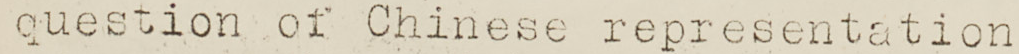question of Chinese representation
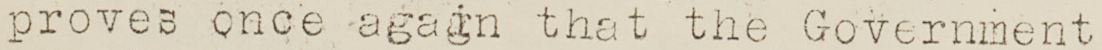proves once again that the Government
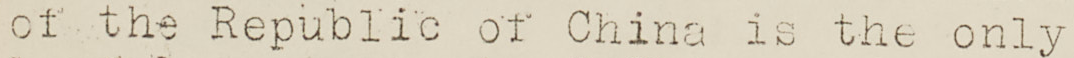of the Republic of China is the only
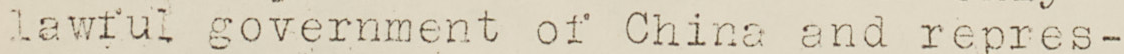lawful government of China and repres-
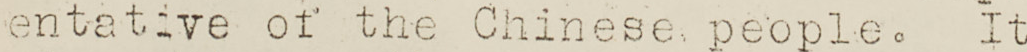entative of the Chinese people. It
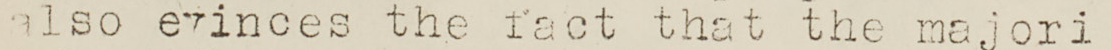also evinces the fact that the majori
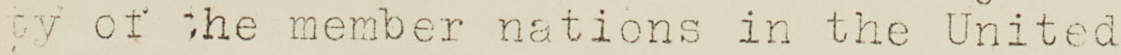ty of the member nations in the United
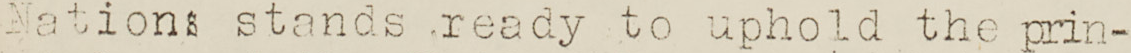Nations stands ready to uphold the prin-
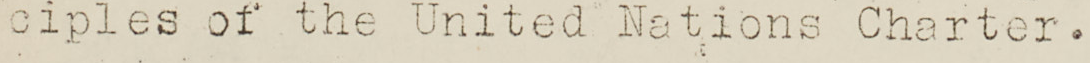ciples of the United Nations Charter.
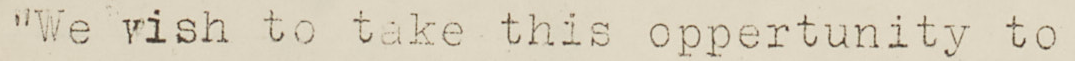"We wish to take this oppertunity to
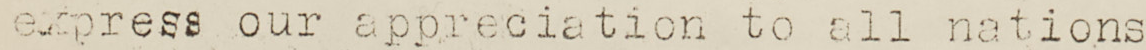express our appreciation to all nations
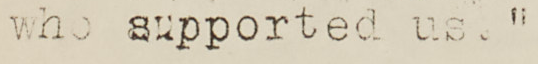who supported us."
